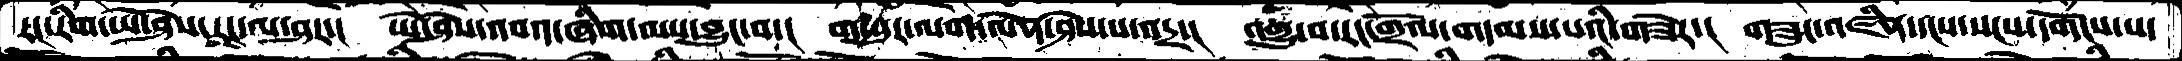རང་རིག་ཡེ་ཤེས་རང་ལ་ཤར་།  ཡེ་ཤེས་འབའ་ཞིག་ལས་བྱུང་བ་། ག་བུར་ལག་ལེན་ཤེས་པ་འདྲ་།  འགྱུ་བ་རང་གྲོལ་གདམས་པའི་གཟེར་།  གཟུང་འཛིན་དངས་སངས་དགོངས་པ་
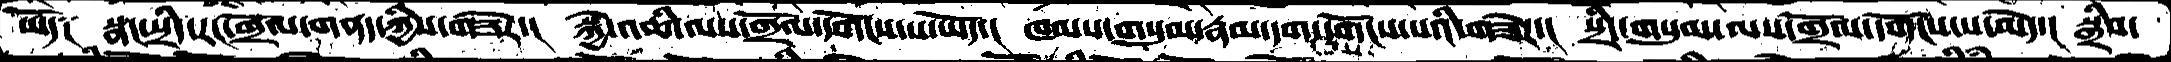ཡོད༑  སྣང་སྲིད་རང་གྲོལ་གནད་ཀྱིས་གཟེར་།  སྐྱེ་འཆི་ལས་གྲོལ་དགོངས་པ་ཡོད་།  ཁམས་གསུམ་རྣམ་དག་དགོངས་པའི་གཟེར་།  སྲིད་གསུམ་ལས་གྲོལ་དགོངས་པ་མེད་།  སྒྲིབ་
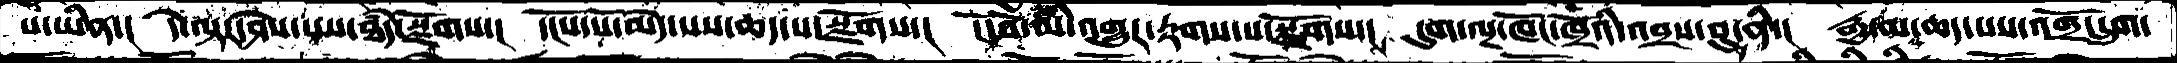པ་ཡིན་།  དེ་ལྟར་ཤེས་པས་ཐདཾ་སྫོགས་།  དངོས་པོ་མེད་པས་ཆད་པ་སྫོགས་།  ངོ་བོ་མི་འགྱུར་རྟགས་པ་སྫོགས་།  དུག་ལྔ་ཁོང་ཁྲོའི་འབྲས་བུ་ནི་།  རྒྱ་མ་ཆད་པས་འགྲོ་དྲུག་
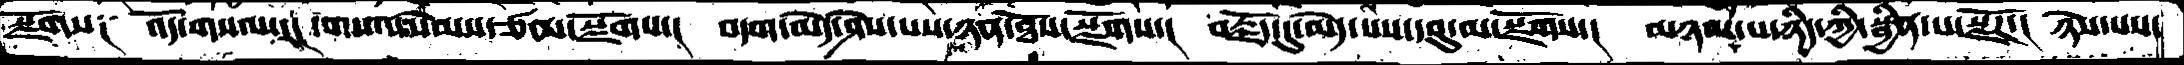སྫོགས༑  འོད་གསལ་རང་གསལ་སེམས་ཙམ་སྫོགས་།  བདག་མེད་ཤེས་པས་ཉན་ཐོས་སྫོགས་།  བརྗོད་དུ་མེད་པས་དབུ་མ་སྫོགས་།  མཉམ་པ་ཉིད་ཀྱི་སྦྱིན་པ་སྫོཌ་།  ཉེས་པས་
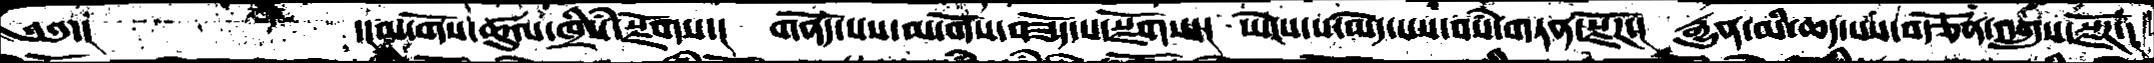༄༅་།  ་།མ་གོས་ཚུལ་ཁྲིཾས་སྫོགས་། གནོད་པས་མ་གོས་བཟོད་པ་སྫོགས་།  ཡེངས་པ་མེད་པས་བསཾ་གཏན་སྫོཌ་།  རྒྱུན་མི་ཆད་པས་བརྩོན་འགྲུས་སྫོཌ་།
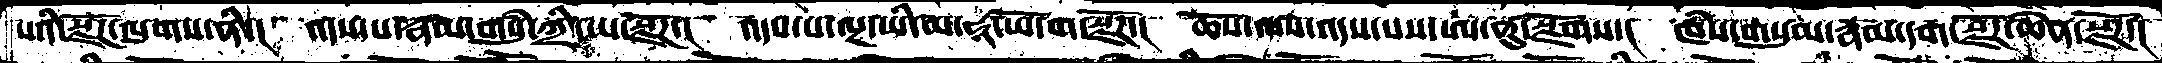པའི་སྫོཌ་ལུགས་ནི་།  འདས་པ་རྣམ་གསུཾ་ཀྲི་ཡ་སྫོཌ་།  འདས་པ་ལྔ་ཡི་མ་ཧཱ་ཡོ་ག་སྫོཌ་།  ཆོས་ལས་འདས་པས་ཨ་ནུ་སྫོགས་།  ཁཾས་གསུམ་རྣམམ་དག་སྫོཌ་ཆེན་སྫོཌ་།
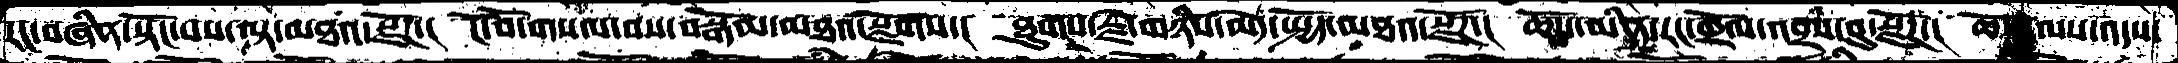རང་བཞིན་སྟོང་པས་ལྟ་མཐའ་སྫོཌ་།  ངོ་བོ་གསལ་བས་བསྒོམ་མཐའ་སྫོགས་།  ཐུགས་རྗེ་གཉིས་མེད་སྤྱོད་མཐའ་སྫོཌ་།  ཆོས་མིན་རང་གྲོལ་འབྲས་བུ་སྫོཌ་།  ཆོོས་ལས་འདས་
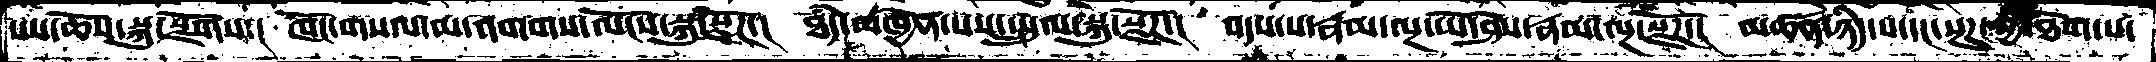པས་ཆོས་སྐུ་སྫོགས་།  ཁོང་གསལ་མ་འགགས་ལོངས་སྐུ་སྫོཌ་།  ཐཾད་མཁྱེན་པས་སྤྲུལ་སྐུ་སྫོཌ་།  འདས་པ་རྣམ་ལྔ་ཡེ་ཤེས་རྣམ་ལྔ་སྫོཌ་།  མཚན་ཉིད་པ་དང་སྔཌ་ཀྱི་ཐེག་པ་
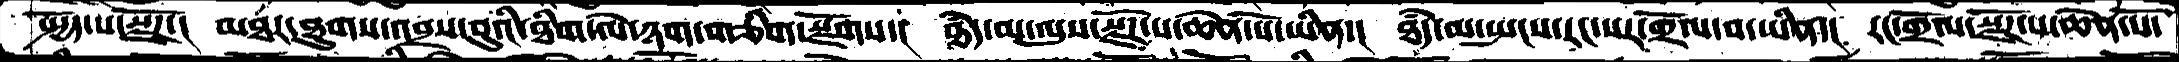སྤྱོད་པ་སྫོཌ་།   མཐར་ཐུགས་འབྲས་བུའི་ཐིག་ལེ་ཉག་གཅིག་སྫོགས་།  ཐཾད་མ་ལུས་སྫོཌ་པ་ཆེན་པོ་ཡིན་།  ཐཾད་མ་སྤངས་རང་སར་གྲོལ་བ་ཡིན་།  རང་གྲོལ་སྫོཌ་པ་ཆེན་པོ་
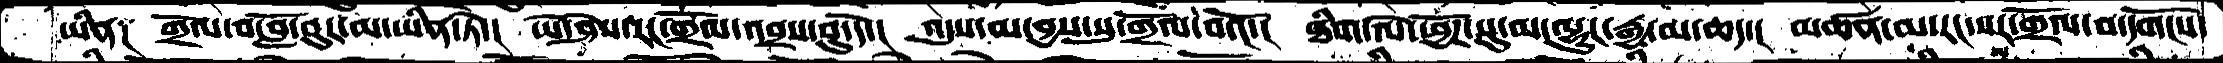ཡིན༑  གྲོལ་བ་བློ་བུར་མ་ཡིན་ཏེ་།  ཡེ་ཤེས་རང་གྲོལ་འབྲས་བུ་དེ་།  འདུས་མ་བྱས་སུ་གྲོལ་བའོ་།  ཐིག་ལེ་ཕྱོཌ་སུ་མ་ལྷུང་རྒྱ་མ་ཆད་།  མཚན་མ་རང་སར་གྲོལ་བ་དགོངས་
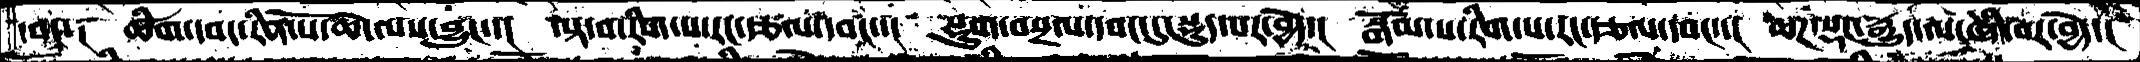དབང་།  ཚིག་དབང་རིན་པོ་ཆེ་ལས་བྱུང་།  ལྟ་བ་རིག་པ་རང་རྩལ་དབང་།  སྡུག་བསྔལ་དབང་དུ་སྡུད་པར་བྱེད་།  སྒོམ་པ་རིག་པ་རང་རྩལ་དབང་་།  ཆཌ་སྡང་རྒྱུད་ལ་ཞི་བར་བྱེད་།
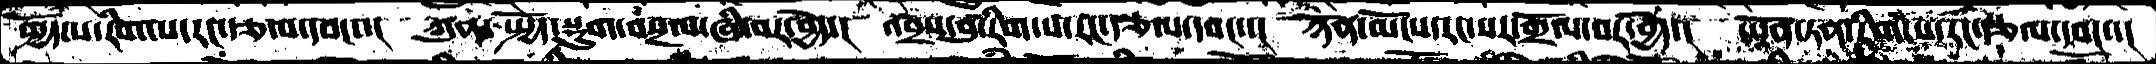སྤྱོད་པ་རིག་པ་རང་རྩལ་དབང་་།  ཀུན་སྤྱོད་སྡུག་བསྔལ་ཞི་བར་བྱེད་།  འབྲས་བུ་རིག་པ་རང་རྩལ་དབང་་།  ཉོན་མོངས་རང་སར་གྲོལ་བར་བྱེད་།  ཡོན་ཏན་རིག་པ་རང་རྩལ་དབང་་།
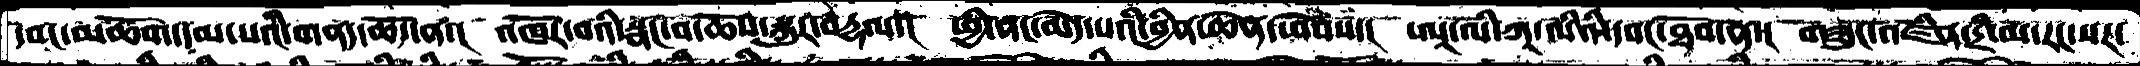དབང་མཆོག་དམ་པའི་གནད་ཆོད་ན་།  འཁོར་བའི་སྣང་བ་ཆོས་སྐུར་བཌྷལ་།  ཕྱི་ནང་མེད་པའི་བྱིན་ཆེན་ཕོབས་།  ཨཱ་ལི་ཀཱ་ལིའི་དབང་ཐོབ་ན་།  གཟུང་འཛིན་དྲི་མ་རང་སར་
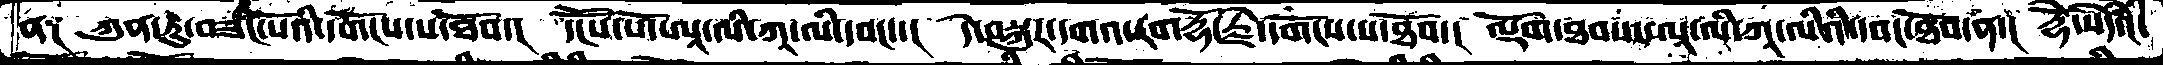ན༑  ཀུན་ཏུ་བཟང་པོའི་དགོངས་པ་ཐོབ་།  དངོས་པོ་ཨཱ་ལི་ཀཱ་ལི་དབང་་།  དེ་བསྐུར་དགའ་རབ་རྡོ་རྗེ་དགོངས་པ་ཐོབ་།  ལྡོག་ཐབས་ཨཱ་ལི་ཀཱ་ལིའི་དབང་ཐོབ་ན་།  རྡོ་ེསེདཾའ་
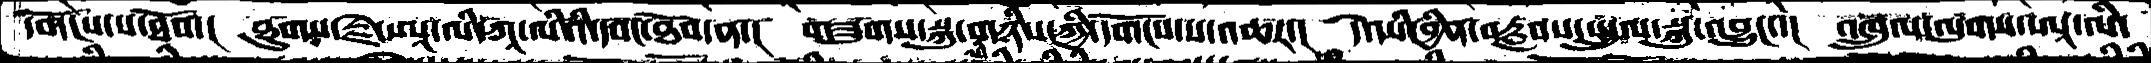དགོངས་པ་ཐོབ་།  ཐུགས་རྗེ་ཨཱ་ལི་ཀཱ་ལིའི་དབང་ཐོབ་ན་།  གཟུགས་སྐུ་གཉིས་ཀྱི་དགོངས་པ་འཆར་།  དེ་ཡི་བྱིན་བརླབས་སྤྲུལ་སྐུ་འབྱུང་་།  འཁྲུལ་ལུགས་ཨཱ་ལི་
